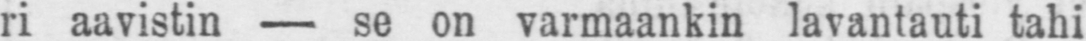ri aavistin — se on varmaankin lavantauti tahi
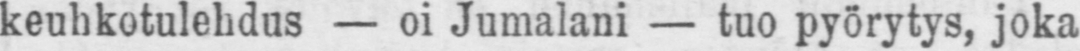keuhkotulehdus — oi Jumalani — tuo pyörytys, joka
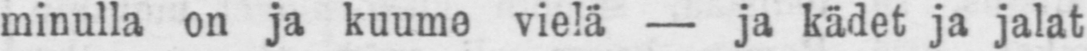minulla on ja kuume vielä — ja kädet ja jalat
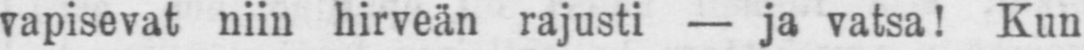vapisevat niin hirveän rajusti — ja vatsa! Kun
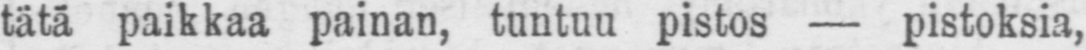tätä paikkaa painan, tuntuu pistos — pistoksia,
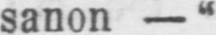sanon —"
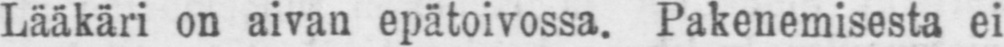Lääkäri on aivan epätoivossa. Pakenemisesta ei
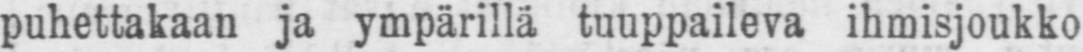puhettakaan ja ympärillä tuuppaileva ihmisjoukko
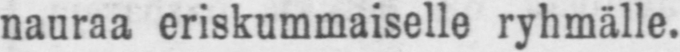nauraa eriskummaiselle ryhmälle.
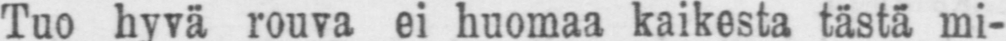Tuo hyvä rouva ei huomaa kaikesta tästä mi-
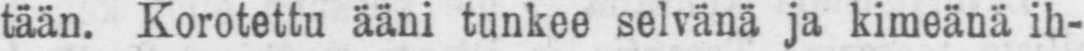tään. Korotettu ääni tunkee selvänä ja kimeänä ih-
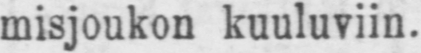misjoukon kuuluviin.
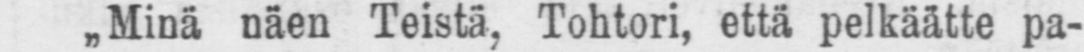˶Minä näen Teistä, Tohtori, että pelkäätte pa-
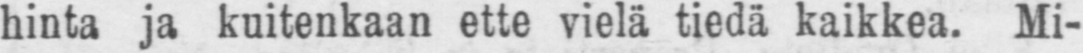hinta ja kuitenkaan ette vielä tiedä kaikkea. Mi-
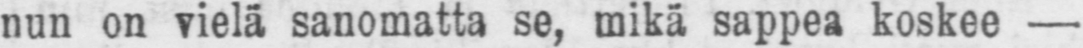nun on vielä sanomatta se, mikä sappea koskee —
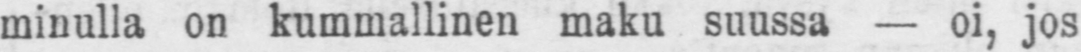minulla on kummallinen maku suussa — oi, jos
